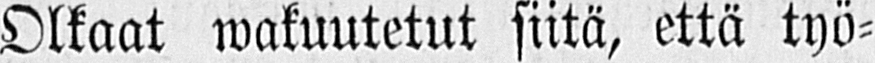Olkaat wakuutetut siitä, että työ-
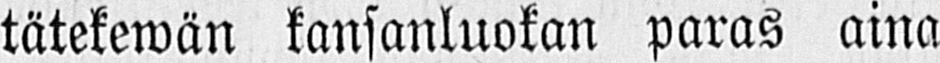tätekewän kansanluokan paras aina
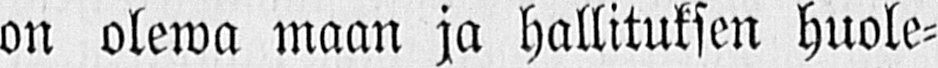on olewa maan ja hallituksen huole-
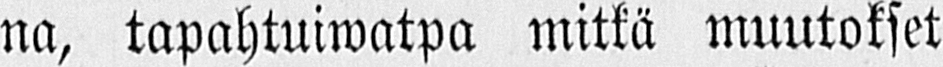na, tapahtuiwatpa mitkä muutokset
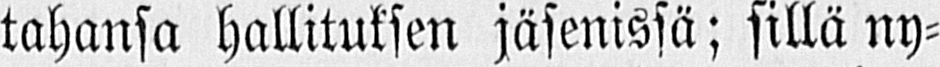tahansa hallituksen jäsenissä; sillä ny-
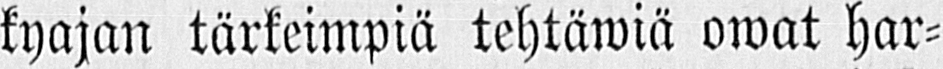kyajan tärkeimpiä tehtäwiä owat har-
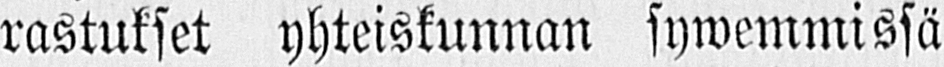rastukset yhteiskunnan sywemmissä
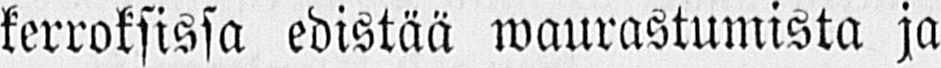kerroksissa edistää waurastumista ja
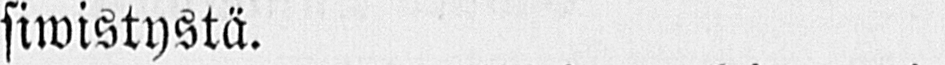siwistystä.
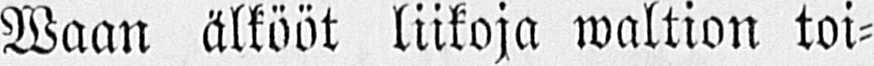Waan älkööt liikoja waltion toi-
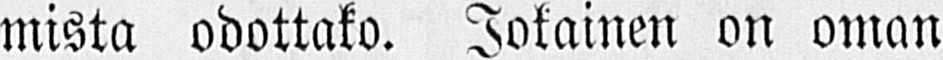mista odottako. Jokainen on oman
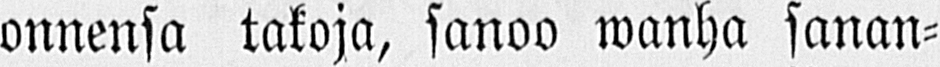onnensa takoja, sanoo wanha sanan-
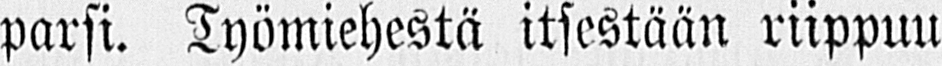parsi. Työmiehestä itsestään riippuu
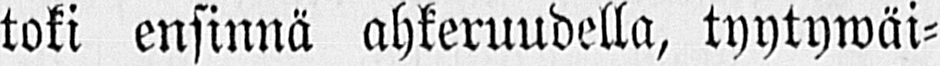toki ensinnä ahkeruudella, tyytywäi-
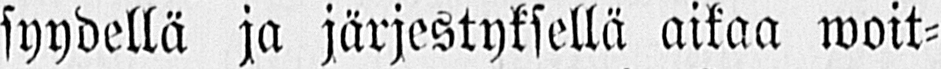syydellä ja järjestyksellä aikaa woit-
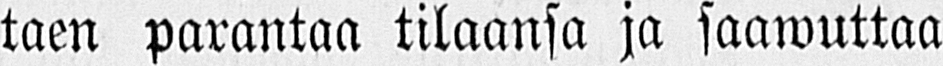taen parantaa tilaansa ja saawuttaa
